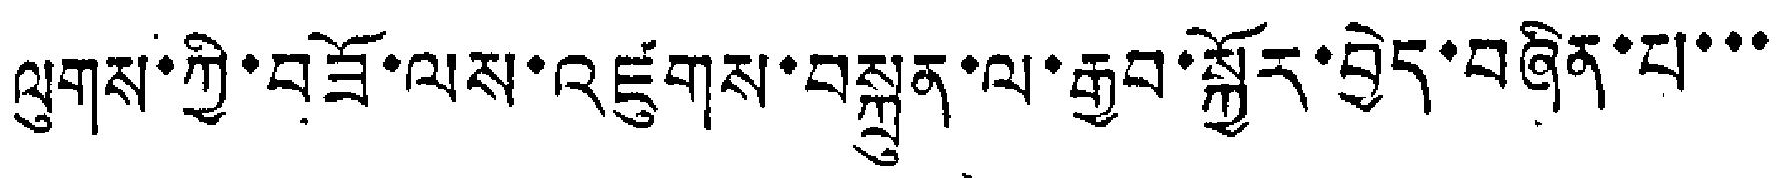ལུགས་ཀྱི་བཟོ་ལས་འཛུགས་བསྐྲུན་ལ་རྒྱབ་སྐྱོར་བྱེད་བཞིན་པ་་་
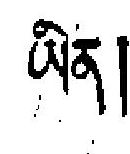ཡིན།
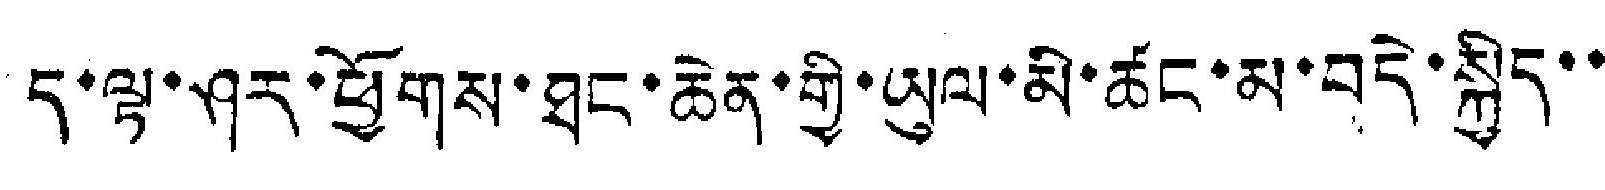ད་ལྟ་ཤར་ཕྱོགས་ཐང་ཆེན་གྱི་ཡུལ་མི་ཚང་མ་བདེ་སྐྱིད་་
